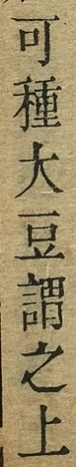可種大豆謂之上
